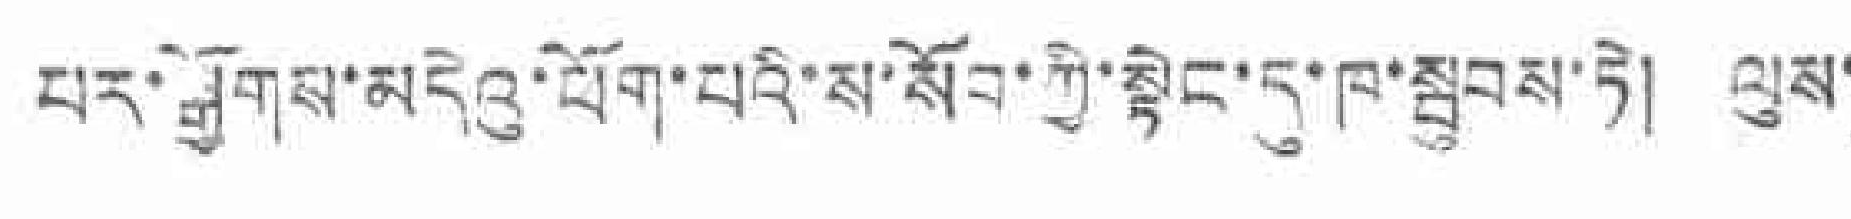པར་སྒྱོགས་མདེའུ་ཕོག་པའི་ས་སོབ་ཀྱི་སྟེང་དུ་ཁ་སྦུབས་ཏེ། ལུས་
